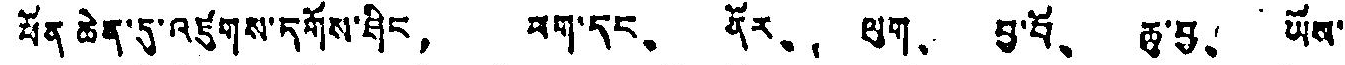ཕོན ཆེན་དུ་འཛུགས་དགོས་ཤིང， ཕག་དང、 ནོར、 ལུག、 བྱ་བོ、 ཆུ་བྱ、 ཡོས་
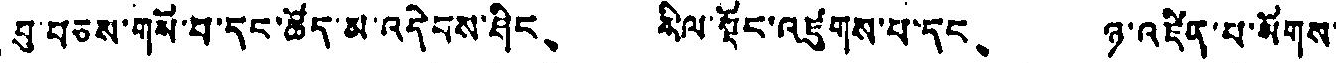བུ་བཅས་གསོ་བ་དང་ཚོད་མ་འདེབས་ཤིང、 སིལ་སྡོང་འཛུགས་པ་དང、 ཉ་འཛིན་པ་སོགས་
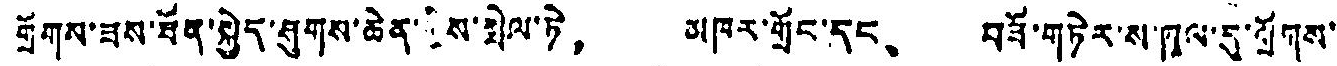གྲོགས་ཟས་ཐོན་སྐྱེད་ཤུགས་ཆེན་གྱིས་སྤེལ་ཏེ， མཁར་གྲོང་དང、 བཟོ་གཏེར་ས་ཁུལ་དུ་གྲོགས་
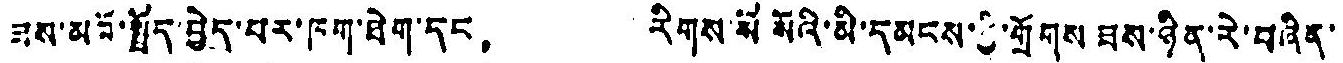ཟས་མཐོ་སྤྲོད་བྱེད་པར་ཁག་ཐེག་དང， རིགས་སོ སོའི་མི་དམངས་ཀྱི་གྲོགས ཐས་ཉིན་རེ་བཞིན་
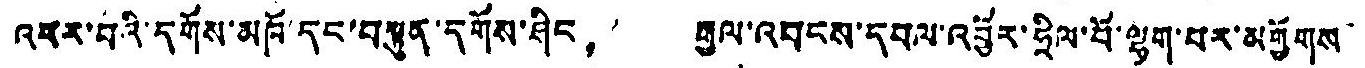འཕར་བའི་དགོས་མཁོ་དང་བསྟུན་དགོས་ཤིང， རྒྱལ་འབངས་དཔལ་འབྱོར་ཧྲིལ་བོ་ལྷག་པར་མགྱོགས་
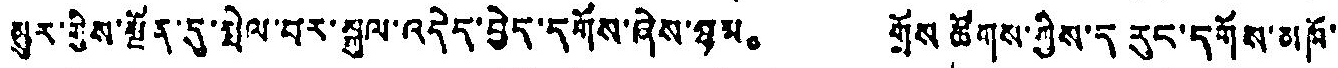མུར་གྱིས་སྔོན་དུ་སྤེལ་བར་སྐུལ་འདེད་བྱེད་དགོས་ཞེས་ཉམ。 གྲོས ཚོགས་ཀྱིས་ད རུང་དགོས་མཁོ་
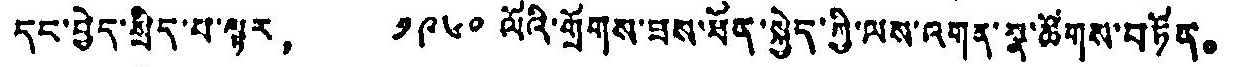དང་བྱེད་སྲིད་པ་ལྟར， ༡༩༦༠ ལོའི་གྲོགས་ཟས་ཐོན་སྐྱེད་ཀྱི་ལས་འགན་སྣ་ཚོགས་བཏོན。
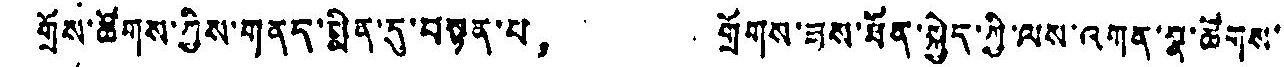གྲོས་ཚོགས་ཀྱིས་གནད་སྨིན་དུ་བསྟན་པ， གྲོགས་ཟས་ཐོན་སྐྱེད་ཀྱི་ལས་འགན་སྣ་ཚོགས་
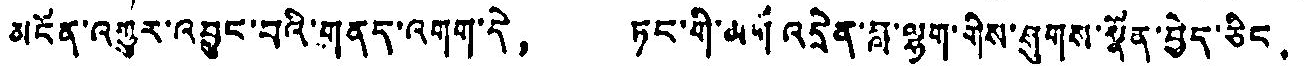མངོན་འགྱུར་འབྱུང་བའི་གནད་འགག་དེ， ཏང་གི་མགོ འདྲེན་བླ་ལྷག་གིས་ཤུགས་སྣོན་བྱེད་ཅིང，
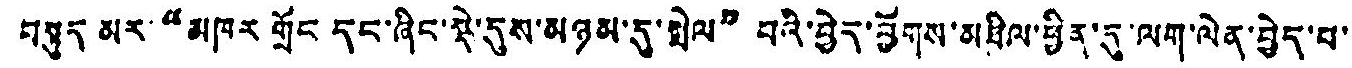བསྟུད མར་“མཁར གྲོང དང་ཞིང་སྡེ་དུས་མཉམ་དུ་སྤེལ” བའི་བྱེད་ཕྱོགས་མཐིལ་ཕྱིན་དུ་ལག་ལེན་བྱེད་པ་
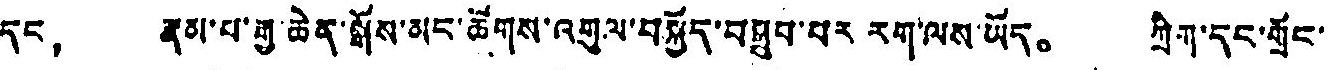དང， རྣམ་པ་རྒྱ་ཆེན་སྒོས་མང་ཚོགས་འགུལ་བསྐྱོད་བསྒྲུབ་པར རག་ལས་ཡོད。 ཀྲིག་དང་གྲོང་
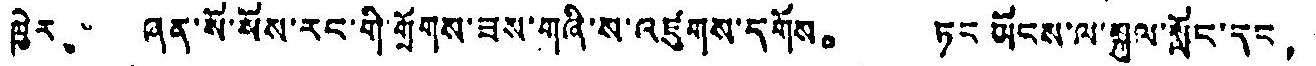ཁྱེར、 ཞན་སོ་སོས་རང་གི་གྲོགས་ཟས་གཞི་ས་འཛུགས་དགོས。 ཏང ཡོངས་ལ་སྐུལ་སློང་དང，
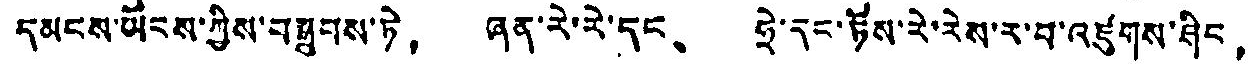དམངས་ཡོངས་ཀྱིས་བསྒྲུབས་ཏེ， ཞན་རེ་རེ་དང、 ཧྲེ་དང་ཧོས་རེ་རེས་ར་བ་འཛུགས་ཤིང，
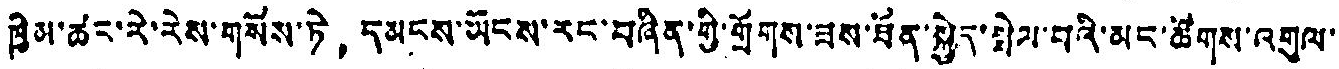ཁྱིམ་ཚང་རེ་རེས་གསོས་ཏེ， དམངས་ཡོངས་རང་བཞིན་གྱི་གྲོགས་ཟས་ཐོན་སྐྱེད་སྤེལ་བའི་མང་ཚོགས་འགུལ་
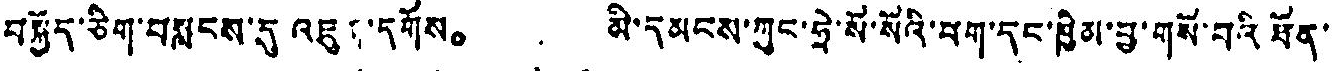བསྐྱོད་ཅིག་བསླངས་དུ འཇུད་དགོས。 མི་དམངས་ཀུང་ཧྲེ་སོ་སོའི་པག་དང་ཁྱིམ་བྱ་གསོ་བའི ཐོན་
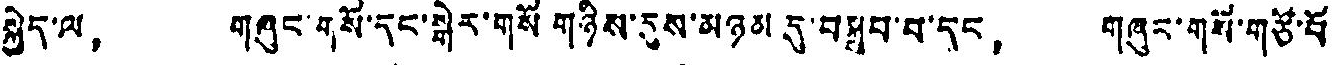སྐྱེད་ལ， གཤུང་གསོ་དང་སྒེར་གསོ གཉིས་དུས་མཉམ དུ་བསྒྲུབ་པ་དང， གཞུང་གསོ་གཙོ་བོ་
